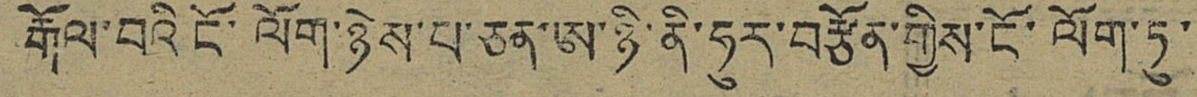རྒོལ་བའི ངོ་ལོག་ཉེས་པ་ཅན་ཨ་ཉི་ནི་ཧུར་བརྩོན་གྱིས་ངོ་ལོག་ཏུ་
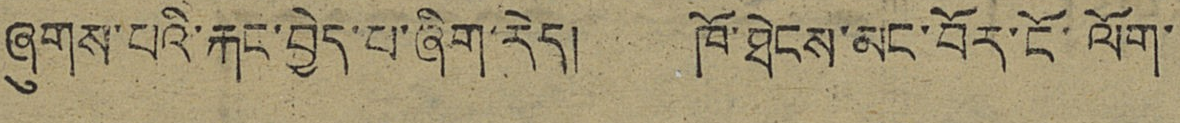ཞུགས་པའི་རྐང་བྱེད་པ་ཞིག་རེད། ཁོ་ཐེངས་མང་བོར་ངོ་ལོག་
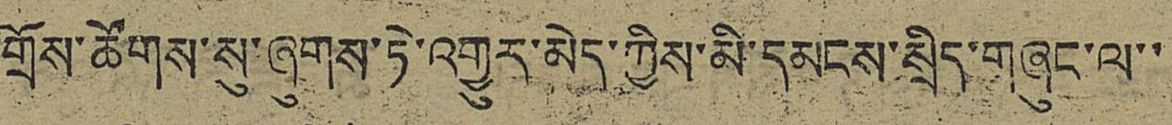གྲོས་ཚོགས་སུ་ཞུགས་ཏེ་འགྱུར་མེད་ཀྱིས་མི་དམངས་སྲིད་གཞུང་ལ་་
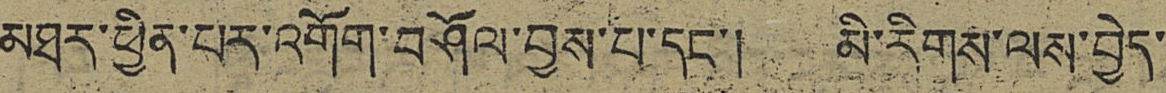མཐར་ཕྱིན་པར་འགོག་བཤོལ་བྱས་པ་དང་། མི་རིགས་ལས་བྱེད་
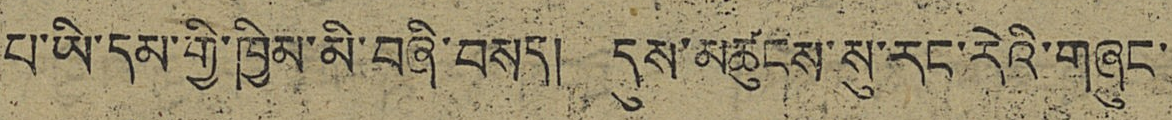པ་ཡི་དམ་གྱི་ཁྱིམ་མི་བཞི་བསད། དུས་མཚུངས་སུ་རང་རེའི་གཞུང་
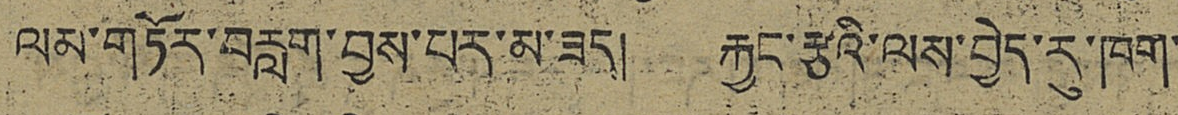ལམ་གཏོར་བརླག་བྱས་པར་མ་ཟད། རྐྱང་རྩའི་ལས་བྱེད་རུ་ཁག་
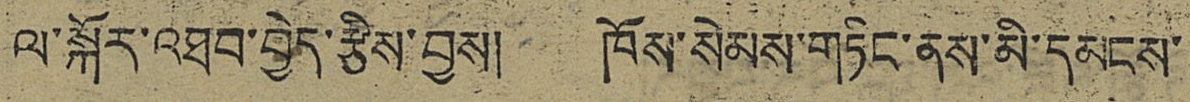ལ་སྐོར་འཐབ་བྱེད་རྩིས་བྱས། ཁོས་སེམས་གཏིང་ནས་མི་དམངས་
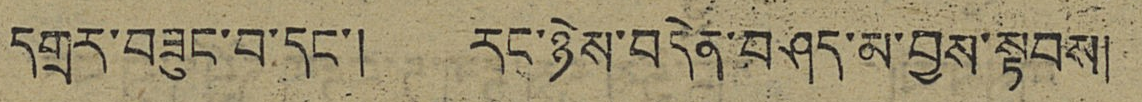དགྲར་བཟུང་བ་དང་། རང་ཉེས་བདེན་བཤད་མ་བྱས་སྟབས།
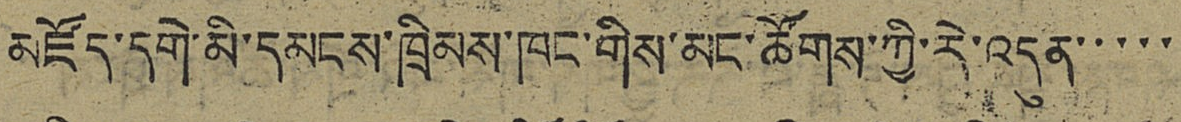མཛོད་དགེ་མི་དམངས་ཁྲིམས་ཁང་གིས་མང་ཚོགས་ཀྱི་རེ་འདུན་་་་་
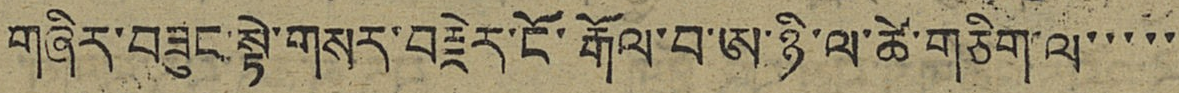གཞིར་བཟུང་སྟེ་གསར་བརྗེར་ངོ་རྒོལ་བ་ཨ་ཉི་ལ་ཚེ་གཅིག་ལ་་་་་
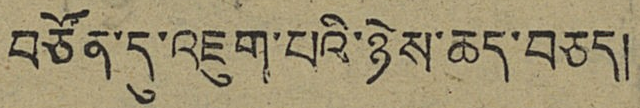བཙོན་དུ་འཇུག་པའི་ཉེས་ཆད་བཅད།
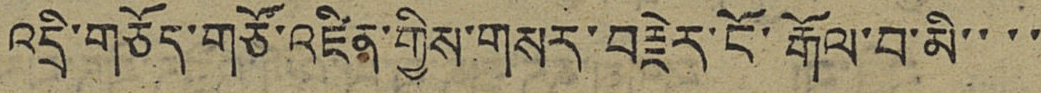འདྲི་གཅོད་གཙོ་འཛིན་གྱིས་གསར་བརྗེར་ངོ་རྒོལ་བ་མི་་་་
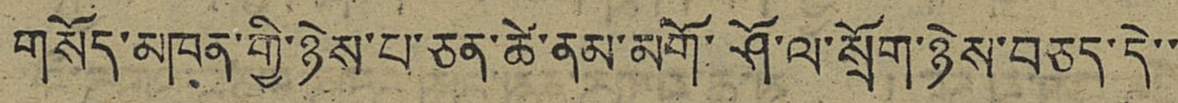གསོད་མཁན་གྱི་ཉེས་པ་ཅན་ཚེ་ནམ་མགོ་ཤོ་ལ་སྲོག་ཉེས་བཅད་དེ་་
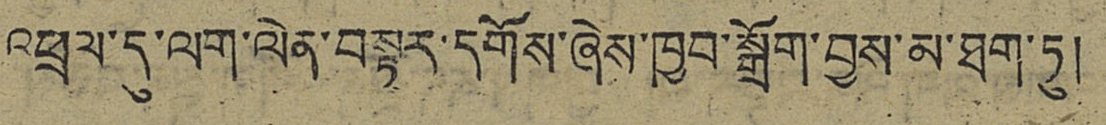འཕྲལ་དུ་ལག་ལེན་བསྟར་དགོས་ཞེས་ཁྱབ་སྒྲོག་བྱས་མ་ཐག་ཏུ།
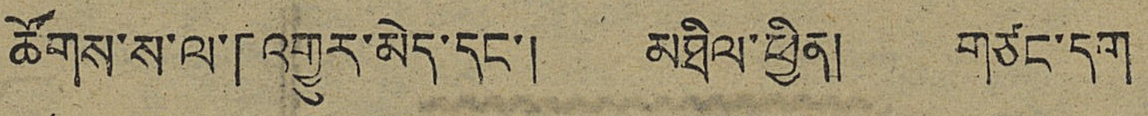ཚོགས་ས་ལ་「འགྱུར་མེད་དང་། མཐིལ་ཕྱིན། གཙང་དག
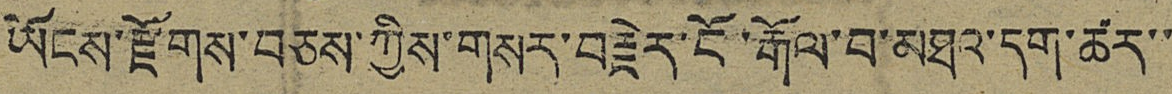ཡོངས་རྫོགས་བཅས་ཀྱིས་གསར་བརྗེར་ངོ་རྒོལ་བ་མཐའ་དག་ཚར་་
